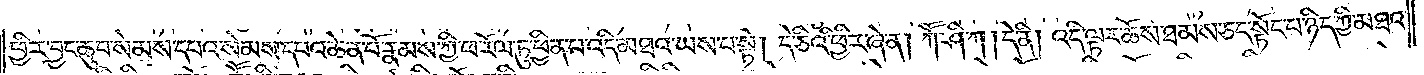ཕྱིར་བྱང་ཆུབ་སེམས་དཔའ་སེམས་དཔའ་ཆེན་པོ་རྣམས་ཀྱི་ཕ་རོལ་ཏུ་ཕྱིན་པ་འདི་མཐའ་ཡས་པ་སྟེ། དེ་ཅིའི་ཕྱིར་ཞེ་ན། ཀཽ་ཤི་ཀ། དེ་ནི། འདི་ལྟར་ཆོས་ཐམས་ཅད་སྟོང་པ་ཉིད་ཀྱི་མཐའ་
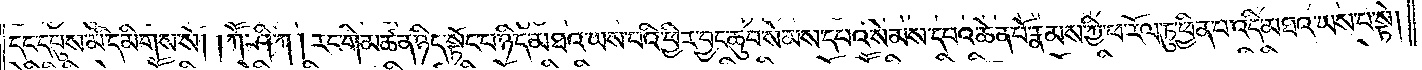དང་དབུས་མི་དམིགས་སོ། །ཀཽ་ཤི་ཀ། རང་གི་མཚན་ཉིད་སྟོང་པ་ཉིད་མཐའ་ཡས་པའི་ཕྱིར་བྱང་ཆུབ་སེམས་དཔའ་སེམས་དཔའ་ཆེན་པོ་རྣམས་ཀྱི་ཕ་རོལ་ཏུ་ཕྱིན་པ་འདི་མཐའ་ཡས་པ་སྟེ།
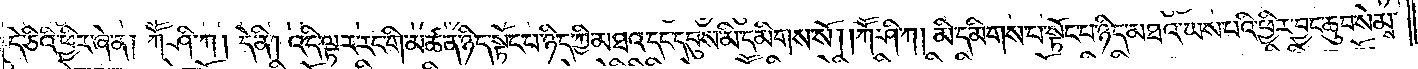དེ་ཅིའི་ཕྱིར་ཞེ་ན། ཀཽ་ཤི་ཀ། དེ་ནི། འདི་ལྟར་རང་གི་མཚན་ཉིད་སྟོང་པ་ཉིད་ཀྱི་མཐའ་དང་དབུས་མི་དམིགས་སོ། །ཀཽ་ཤི་ཀ། མི་དམིགས་པ་སྟོང་པ་ཉིད་མཐའ་ཡས་པའི་ཕྱིར་བྱང་ཆུབ་སེམས་
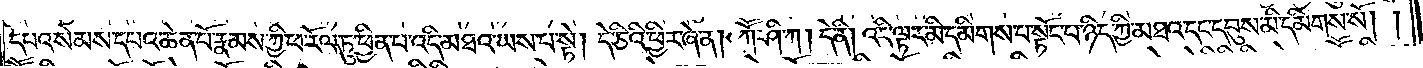དཔའ་སེམས་དཔའ་ཆེན་པོ་རྣམས་ཀྱི་ཕ་རོལ་ཏུ་ཕྱིན་པ་འདི་མཐའ་ཡས་པ་སྟེ། དེ་ཅིའི་ཕྱིར་ཞེ་ན། ཀཽ་ཤི་ཀ། དེ་ནི། འདི་ལྟར་མི་དམིགས་པ་སྟོང་པ་ཉིད་ཀྱི་མཐའ་དང་དབུས་མི་དམིགས་སོ། །
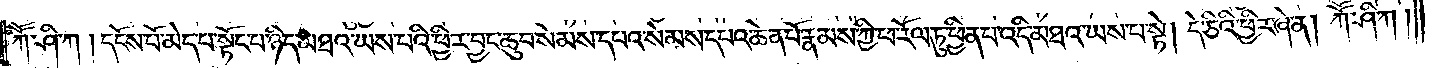ཀཽ་ཤི་ཀ། དངོས་པོ་མེད་པ་སྟོང་པ་ཉིད་མཐའ་ཡས་པའི་ཕྱིར་བྱང་ཆུབ་སེམས་དཔའ་སེམས་དཔའ་ཆེན་པོ་རྣམས་ཀྱི་ཕ་རོལ་ཏུ་ཕྱིན་པ་འདི་མཐའ་ཡས་པ་སྟེ། དེ་ཅིའི་ཕྱིར་ཞེ་ན། ཀཽ་ཤི་ཀ།
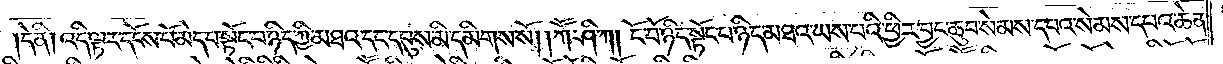དེ་ནི། འདི་ལྟར་དངོས་པོ་མེད་པ་སྟོང་པ་ཉིད་ཀྱི་མཐའ་དང་དབུས་མི་དམིགས་སོ། །ཀཽ་ཤི་ཀ། ངོ་བོ་ཉིད་སྟོང་པ་ཉིད་མཐའ་ཡས་པའི་ཕྱིར་བྱང་ཆུབ་སེམས་དཔའ་སེམས་དཔའ་ཆེན་
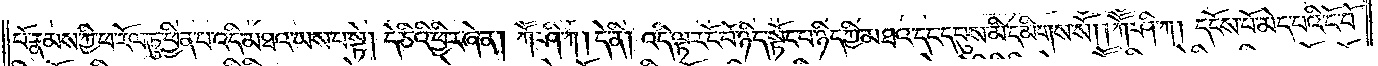པོ་རྣམས་ཀྱི་ཕ་རོལ་ཏུ་ཕྱིན་པ་འདི་མཐའ་ཡས་པ་སྟེ། དེ་ཅིའི་ཕྱིར་ཞེ་ན། ཀཽ་ཤི་ཀ། དེ་ནི། འདི་ལྟར་ངོ་བོ་ཉིད་སྟོང་པ་ཉིད་ཀྱི་མཐའ་དང་དབུས་མི་དམིགས་སོ། །ཀཽ་ཤི་ཀ། དངོས་པོ་མེད་པའི་ངོ་བོ་
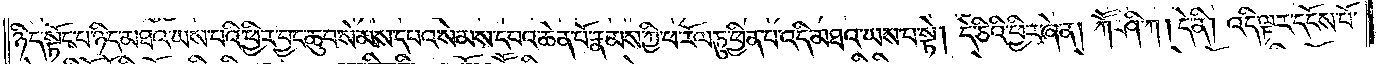ཉིད་སྟོང་པ་ཉིད་མཐའ་ཡས་པའི་ཕྱིར་བྱང་ཆུབ་སེམས་དཔའ་སེམས་དཔའ་ཆེན་པོ་རྣམས་ཀྱི་ཕ་རོལ་ཏུ་ཕྱིན་པ་འདི་མཐའ་ཡས་པ་སྟེ། དེ་ཅིའི་ཕྱིར་ཞེ་ན། ཀཽ་ཤི་ཀ། དེ་ནི། འདི་ལྟར་དངོས་པོ་
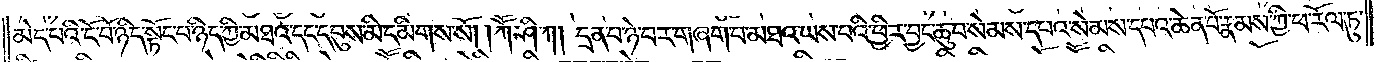མེད་པའི་ངོ་བོ་ཉིད་སྟོང་པ་ཉིད་ཀྱི་མཐའ་དང་དབུས་མི་དམིགས་སོ། །ཀཽ་ཤི་ཀ། དྲན་པ་ཉེ་བར་གཞག་པ་མཐའ་ཡས་པའི་ཕྱིར་བྱང་ཆུབ་སེམས་དཔའ་སེམས་དཔའ་ཆེན་པོ་རྣམས་ཀྱི་ཕ་རོལ་ཏུ་
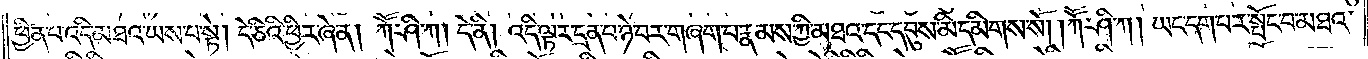ཕྱིན་པ་འདི་མཐའ་ཡས་པ་སྟེ། དེ་ཅིའི་ཕྱིར་ཞེ་ན། ཀཽ་ཤི་ཀ། དེ་ནི། འདི་ལྟར་དྲན་པ་ཉེ་བར་གཞག་པ་རྣམས་ཀྱི་མཐའ་དང་དབུས་མི་དམིགས་སོ། །ཀཽ་ཤི་ཀ། ཡང་དག་པར་སྤོང་བ་མཐའ་
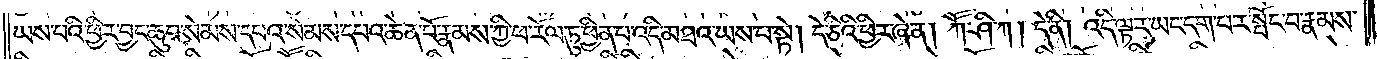ཡས་པའི་ཕྱིར་བྱང་ཆུབ་སེམས་དཔའ་སེམས་དཔའ་ཆེན་པོ་རྣམས་ཀྱི་ཕ་རོལ་ཏུ་ཕྱིན་པ་འདི་མཐའ་ཡས་པ་སྟེ། དེ་ཅིའི་ཕྱིར་ཞེ་ན། ཀཽ་ཤི་ཀ། དེ་ནི། འདི་ལྟར་ཡང་དག་པར་སྤོང་བ་རྣམས་
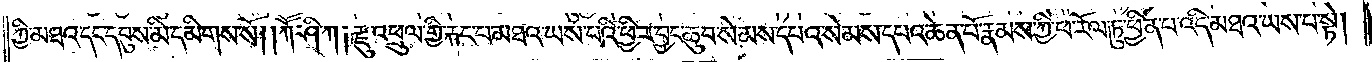ཀྱི་མཐའ་དང་དབུས་མི་དམིགས་སོ། །ཀཽ་ཤི་ཀ། རྫུ་འཕྲུལ་གྱི་རྐང་པ་མཐའ་ཡས་པའི་ཕྱིར་བྱང་ཆུབ་སེམས་དཔའ་སེམས་དཔའ་ཆེན་པོ་རྣམས་ཀྱི་ཕ་རོལ་ཏུ་ཕྱིན་པ་འདི་མཐའ་ཡས་པ་སྟེ།
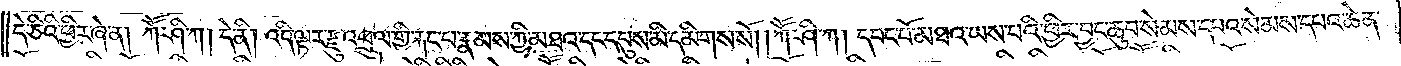དེ་ཅིའི་ཕྱིར་ཞེ་ན། ཀཽ་ཤི་ཀ། དེ་ནི། འདི་ལྟར་རྫུ་འཕྲུལ་གྱི་རྐང་པ་རྣམས་ཀྱི་མཐའ་དང་དབུས་མི་དམིགས་སོ། །ཀཽ་ཤི་ཀ། དབང་པོ་མཐའ་ཡས་པའི་ཕྱིར་བྱང་ཆུབ་སེམས་དཔའ་སེམས་དཔའ་ཆེན་
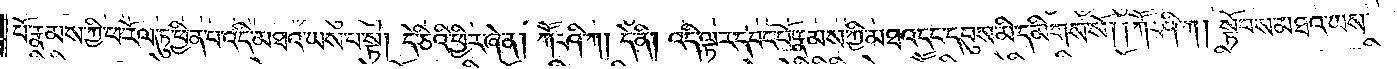པོ་རྣམས་ཀྱི་ཕ་རོལ་ཏུ་ཕྱིན་པ་འདི་མཐའ་ཡས་པ་སྟེ། དེ་ཅིའི་ཕྱིར་ཞེ་ན། ཀཽ་ཤི་ཀ། དེ་ནི། འདི་ལྟར་དབང་པོ་རྣམས་ཀྱི་མཐའ་དང་དབུས་མི་དམིགས་སོ། །ཀཽ་ཤི་ཀ། སྟོབས་མཐའ་ཡས་
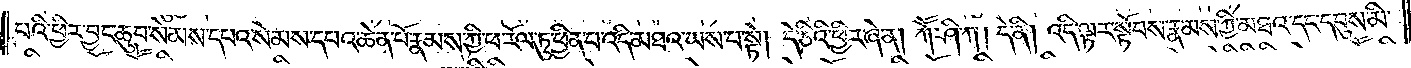པའི་ཕྱིར་བྱང་ཆུབ་སེམས་དཔའ་སེམས་དཔའ་ཆེན་པོ་རྣམས་ཀྱི་ཕ་རོལ་ཏུ་ཕྱིན་པ་འདི་མཐའ་ཡས་པ་སྟེ། དེ་ཅིའི་ཕྱིར་ཞེ་ན། ཀཽ་ཤི་ཀ། དེ་ནི། འདི་ལྟར་སྟོབས་རྣམས་ཀྱི་མཐའ་དང་དབུས་མི་
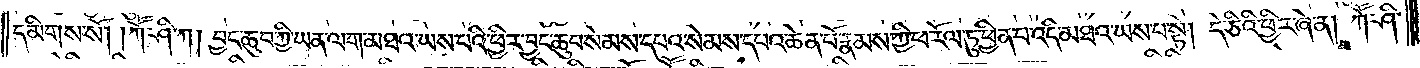དམིགས་སོ། །ཀཽ་ཤི་ཀ། བྱང་ཆུབ་ཀྱི་ཡན་ལག་མཐའ་ཡས་པའི་ཕྱིར་བྱང་ཆུབ་སེམས་དཔའ་སེམས་དཔའ་ཆེན་པོ་རྣམས་ཀྱི་ཕ་རོལ་ཏུ་ཕྱིན་པ་འདི་མཐའ་ཡས་པ་སྟེ། དེ་ཅིའི་ཕྱིར་ཞེ་ན། ཀཽ་ཤི་
